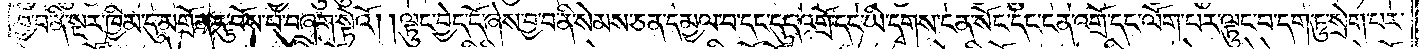བྱ་བ་ནི་སྔར་ཁྱིམ་དུ་མགྲོན་དུ་བོས་པ་བཞག་སྟེའོ། །ལྟུང་བྱེད་དོ་ཞེས་བྱ་བ་ནི་སེམས་ཅན་དམྱལ་བ་དང་དུད་འགྲོ་དང་ཡི་དྭགས་ངན་སོང་དང་ངན་འགྲོ་དང་ལོག་པར་ལྟུང་བ་དག་ཏུ་སྲེག་པར་
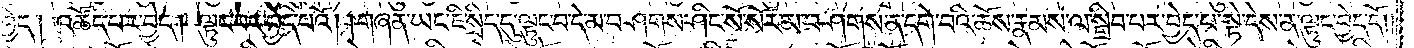བྱེད། འཚོད་པར་བྱེད། ལྟུང་བར་བྱེད་པའོ། །གཞན་ཡང་ཇི་སྲིད་དུ་ལྟུང་བ་དེ་མ་བཤགས་ཤིང་སོ་སོར་མ་བཤགས་ན་དགེ་པའི་ཆོས་རྣམས་ལ་སྒྲིབ་པར་བྱེད་པ་སྟེ་དེས་ན་ལྟུང་བྱེད་དོ།
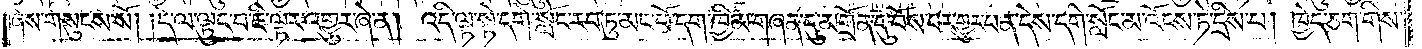ཞེས་གསུངས་སོ། །དེ་ལ་ལྟུང་བ་ཇི་ལྟར་འགྱུར་ཞེ་ན། འདི་ལྟ་སྟེ་དགེ་སློང་རབ་ཏུ་མང་པོ་དག་ཁྱིམ་གཞན་དུ་མགྲོན་དུ་བོས་པར་གྱུར་བན་དེས་སློང་མ་འོངས་ཏེ་དྲིས་པ། ཁྱེད་ཅག་གིས་
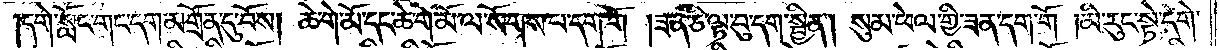དགེ་སློང་གང་དག་མགྲོན་དུ་བོས། ཆེ་གེ་མོ་དང་ཆེ་གེ་མོ་ལ་སོགས་པ་དག་གོ །ཟན་ཅི་ལྟ་བུ་དག་སྦྱིན། སུམ་ཕེལ་གྱི་ཟན་དག་གོ །མི་རུང་སྟེ་དགེ་
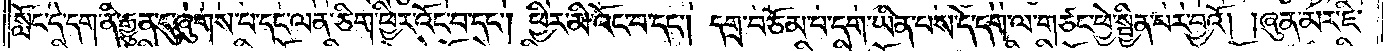སློང་དེ་དག་ནི་རྒྱུན་དུ་ཞུགས་པ་དང་ལན་ཅིག་ཕྱིར་འོང་བ་དང༌། ཕྱིར་མི་འོང་བ་དང༌། དགྲ་བཅོམ་པ་དག་ཡིན་པས་དེ་དག་ལ་གཙང་ཕྱེ་སྦྱིན་པར་བྱའོ། །ཞུན་མར་ཇི་
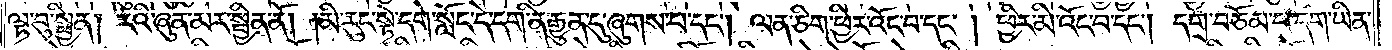ལྟ་བུ་སྦྱིན། རའི་ཞུན་མར་སྦྱིན་ནོ། །མི་རུང་སྟེ་དགེ་སློང་དེ་དག་ནི་རྒྱུན་དུ་ཞུགས་པ་དང༌། ལན་ཅིག་ཕྱིར་འོང་བ་དང༌། ཕྱིར་མི་འོང་བ་དང༌། དགྲ་བཅོམ་པ་དག་ཡིན་
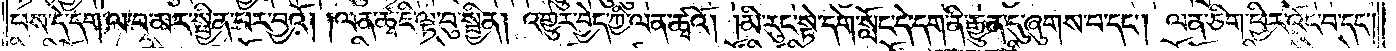པས་དེ་དག་ལ་བ་མར་སྦྱིན་པར་བྱའོ། །ལན་ཚྭ་ཇི་ལྟ་བུ་སྦྱིན། འགྱུར་བྱེད་ཀྱི་ལན་ཚྭའོ། །མི་རུང་སྟེ་དགེ་སློང་དེ་དག་ནི་རྒྱུན་དུ་ཞུགས་པ་དང༌། ལན་ཅིག་ཕྱིར་འོང་བ་དང༌།
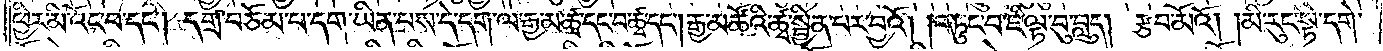ཕྱིར་མི་འོང་བ་དང༌། དགྲ་བཅོམ་པ་དག་ཡིན་པས་དེ་དག་ལ་རྒྱ་མ་ཚྭ་དང་བ་ཚྭ་དང༌། རྒྱ་མཚོའི་ཚྭ་སྦྱིན་པར་བྱའོ། །བཏུང་བ་ཇི་ལྟ་བུ་བླུད། རྩབ་མོའོ། །མི་རུང་སྟེ་དགེ་
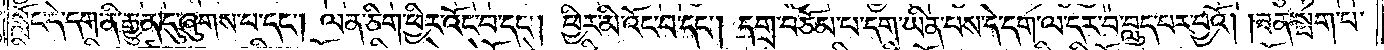སློང་དེ་དག་ནི་རྒྱུན་དུ་ཞུགས་པ་དང༌། ལན་ཅིག་ཕྱིར་འོང་བ་དང༌། ཕྱིར་མི་འོང་བ་དང༌། དགྲ་བཅོམ་པ་དག་ཡིན་པས་དེ་དག་ལ་དར་བ་བླུད་པར་བྱའོ། །ཟན་སྤག་པ་
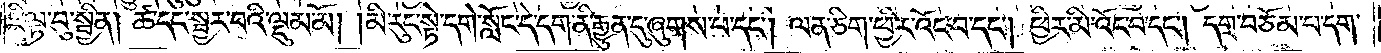ཇི་ལྟ་བུ་སྦྱིན། ཚ་དང་སྦྱར་བའི་ལྡུམ་མོ། མི་རུང་སྟེ་དགེ་སློང་དེ་དག་ནི་རྒྱུན་དུ་ཞུགས་པ་དང༌། ལན་ཅིག་ཕྱིར་འོང་བ་དང༌། ཕྱིར་མི་འོང་བ་དང༌། དགྲ་བཅོམ་པ་དག་
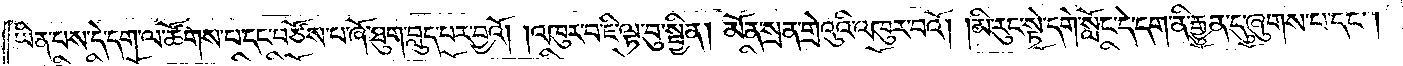ཡིན་པས་དེ་དག་ལ་ཚོགས་པ་དང་བཙོས་པ་ཞོ་ཐུག་བླུད་པར་བྱའོ། །འཁུར་བ་ཇི་ལྟ་བུ་སྦྱིན། མོན་སྲན་གྲེའུའི་འཁུར་བའོ། །མི་རུང་སྟེ་དགེ་སློང་དེ་དག་ནི་རྒྱུན་དུ་ཞུགས་པ་དང༌།
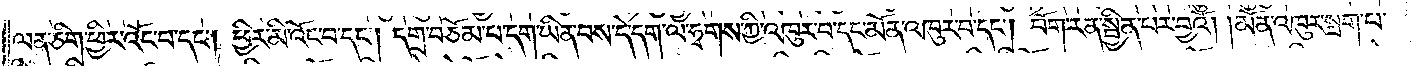ལན་ཅིག་ཕྱིར་འོང་བ་དང༌། ཕྱིར་མི་འོང་བ་དང༌། དགྲ་བཅོམ་པ་དག་ཡིན་པས་དེ་དག་ལ་ཧྭགས་ཀྱི་འཁུར་བ་དང་མོན་འཁུར་བ་དང༌། བོག་རན་སྦྱིན་པར་བྱའོ། །མོན་འཁུར་སྦག་པར་
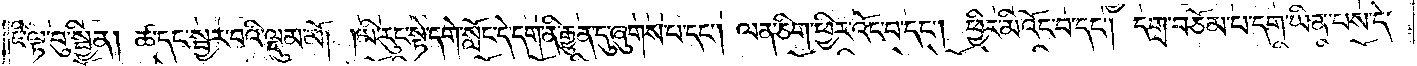ཇི་ལྟ་བུ་སྦྱིན། ཚ་དང་སྦྱར་བའི་ལྡུམ་མོ། །མི་རུང་སྟེ་དགེ་སློང་དེ་དག་ནི་རྒྱུན་དུ་ཞུགས་པ་དང༌། ལན་ཅིག་ཕྱིར་འོང་བ་དང༌། ཕྱིར་མི་འོང་བ་དང༌། དགྲ་བཅོམ་པ་དག་ཡིན་པས་དེ་
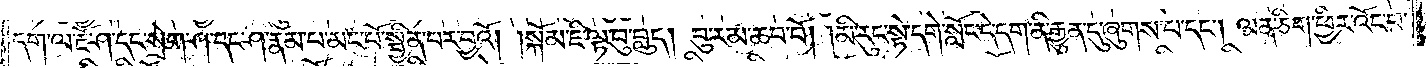དག་ལ་རྔོ་ཤ་དང་སྲེག་ཤ་དང་ཤ་རྣམས་མང་པོ་སྦྱིན་པར་བྱའོ། །སྐོམ་ཇི་ལྟ་བུ་བླུད། བུ་རམ་ཆབ་བོ། །མི་རུང་སྟེ་དགེ་སློང་དེ་དག་ནི་རྒྱུན་དུ་ཞུགས་པ་དང༌། ལན་ཅིག་ཕྱིར་འོང་བ་
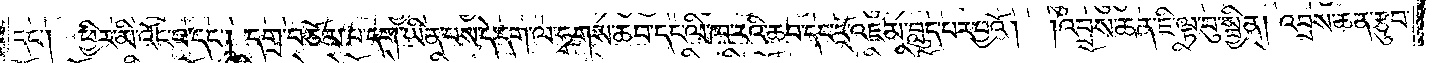དང༌། ཕྱིར་མི་འོང་བ་དང༌། དགྲ་བཅོམ་པ་དག་ཡིན་པས་དེ་དག་ལ་ཧྭགས་ཆབ་དང་ལི་ཁར་ཆབ་དང་དྲོ་འཇམ་བླུད་པར་བྱའོ།   །འབྲས་ཆན་ཇི་ལྟ་བུ་སྦྱིན། འབྲས་ཆན་རྩུབ་
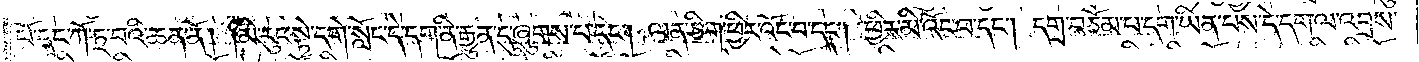པོ་དང་ཀོ་ཏྲ་བའི་ཆན་ནོ། མི་རུང་སྟེ་དགེ་སློང་དེ་དག་ནི་རྒྱུན་དུ་ཞུགས་པ་དང༌། ལན་ཅིག་ཕྱིར་མི་འོང་བ་དང༌། ཕྱིར་མི་འོང་བ་དང༌། དགྲ་བཅོམ་པ་དག་ཡིན་པས་དེ་དག་ལ་འབྲས་
